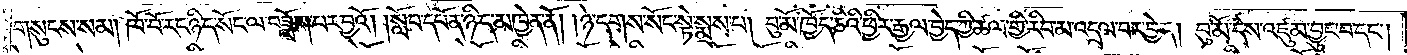གསུངས་སམ། ཁོ་བོ་རང་ཉིད་སོང་ལ་བཟློག་པར་བྱའོ། །སློབ་དཔོན་ཉིད་མཁྱེན་ནོ། །ཉེ་དགས་སོང་སྟེ་སྨྲས་པ། བུ་མོ་ཁྱོད་ཅིའི་ཕྱིར་རྒྱལ་བྱེད་ཀྱི་ཚལ་གྱི་རིབ་མ་འདྲལ་བར་བྱེད། བུ་མོ་དེས་འཛུམ་བྱུང་བ་དང༌།
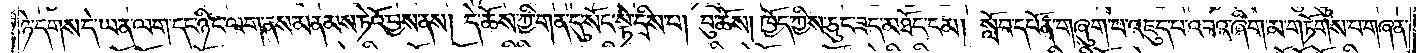ཉེ་དགས་དེ་ཡན་ལག་དང་ཉིང་ལག་ནས་མནམས་ཏེའོ་བྱས་ནས། དེ་ཆོས་ཀྱི་གན་དུ་སོང་སྟེ་དྲིས་པ། བུ་ཆོས། ཁྱོད་ཀྱིས་ཅུང་ཟད་མཐོང་ངམ། སློབ་དཔོན་གཞུག་པ་འཇུད་པ་འབའ་ཞིག་མ་གཏོགས་པ་གཞན་
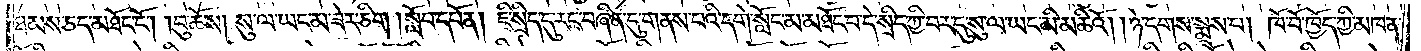ཐམས་ཅད་མཐོང་ངོ༌། །བུ་ཆོས། སུ་ལ་ཡང་མ་ཟེར་ཅིག །སློབ་དཔོན། ཇི་སྲིད་དུ་རང་བཞིན་དུ་གནས་པའི་དགེ་སློང་མ་མཐོང་བ་དེ་སྲིད་ཀྱི་བར་དུ་སུ་ལ་ཡང་མི་མཆིའོ། །ཉེ་དགས་སྨྲས་པ། ཁོ་བོ་ཁྱོད་ཀྱི་མཁན་
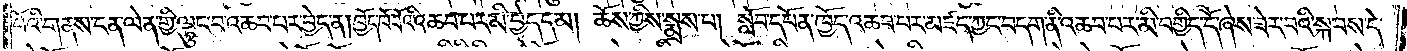བོའི་གནས་ངན་ལེན་གྱི་ལྟུང་བ་འཆབ་པར་བྱེད་ན། ཁྱོད་ཁོ་བོའི་འཆབ་པར་མི་བྱེད་དམ། ཆོས་ཀྱིས་སྨྲས་པ། སློབ་དཔོན་ཁྱོད་འཆབ་པར་མཛད་ཀྱང་བདག་ནི་འཆབ་པར་མི་བགྱིད་དོ་ཞེས་ཟེར་བའི་སྐབས་དེ་
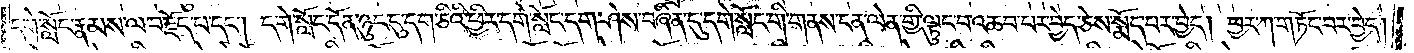དགེ་སློང་རྣམས་ལ་བརྗོད་པ་དང༌། དགེ་སློང་དོན་ཉུང་དུ་དག་ཅིའི་ཕྱིར་དགེ་སློང་དག་ཤེས་བཞིན་དུ་དགེ་སློང་གི་གནས་ངན་ལེན་གྱི་ལྟུང་བ་འཆབ་པར་བྱེད་ཅེས་སྨོད་པར་བྱེད། ཕྱར་ཀ་གཏོང་བར་བྱེད།
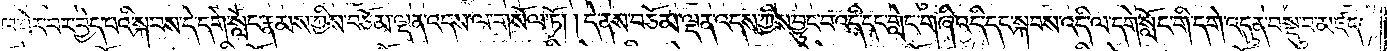ཁ་ཟེར་བར་བྱེད་པའི་སྐབས་དེ་དགེ་སློང་རྣམས་ཀྱིས་བཅོམ་ལྡན་འདས་ལ་གསོལ་ཏོ། །དེ་ནས་བཅོམ་ལྡན་འདས་ཀྱིས་བྱུང་བ་འདི་དང་གླེང་གཞི་འདི་དང་སྐབས་འདི་ལ་དགེ་སློང་གི་དགེ་འདུན་བསྡུ་བ་མཛད་
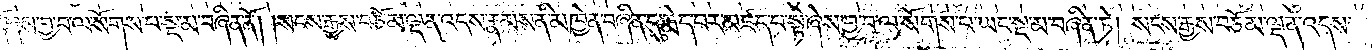དོ་ཞེས་བྱ་བ་ལ་སོགས་པ་སྔ་མ་བཞིན་ནོ། །སངས་རྒྱས་བཅོམ་ལྡན་འདས་རྣམས་ནི་མཁྱེན་བཞིན་དུ་རྨེད་པར་མཛད་པ་སྟེ་ཞེས་བྱ་བ་ལ་སོགས་པ་ཡང་སྔ་མ་བཞིན་ཏེ། སངས་རྒྱས་བཅོམ་ལྡན་འདས་
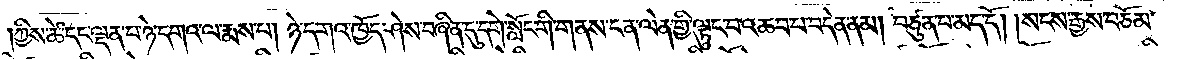ཀྱིས་ཚེ་དང་ལྡན་པ་ཉེ་དགའ་ལ་རྨས་པ། ཉེ་དགའ་ཁྱོད་ཤེས་བཞིན་དུ་དགེ་སློང་གི་གནས་ངན་ལེན་གྱི་ལྟུང་བ་འཆབ་པ་བདེན་ནམ། བཙུན་པ་མད་དོ། །སངས་རྒྱས་བཅོམ་
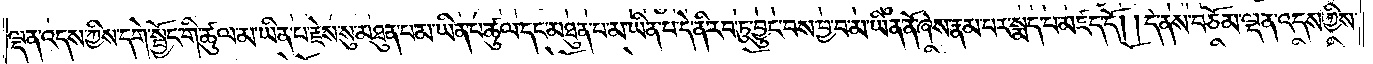ལྡན་འདས་ཀྱིས་དགེ་སྦྱོང་གི་ཚུལ་མ་ཡིན་པ་རྗེས་སུ་མཐུན་པ་མ་ཡིན་པ་ཚུལ་དང་མཐུན་པ་མ་ཡིན་པ་དེ་ནི་རབ་ཏུ་བྱུང་བས་བྱ་བ་མ་ཡིན་ནོ་ཞེས་རྣམ་པར་སྨད་པ་མཛད་དོ། །དེ་ནས་བཅོམ་ལྡན་འདས་ཀྱིས་
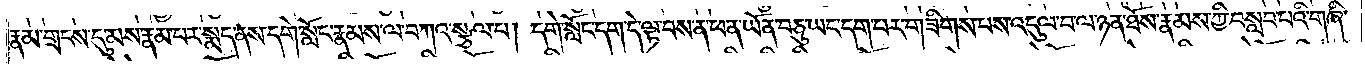རྣམ་གྲངས་དུ་མས་རྣམ་པར་སྨད་ནས་དགེ་སློང་རྣམས་ལ་བཀའ་སྩལ་པ། དགེ་སློང་དག་དེ་ལྟ་བས་ན་ཕན་ཡོན་བཅུ་ཡང་དག་པར་གཟིགས་པས་འདུལ་བ་ལ་ཉན་ཐོས་རྣམས་ཀྱི་བསླབ་པའི་གཞི་
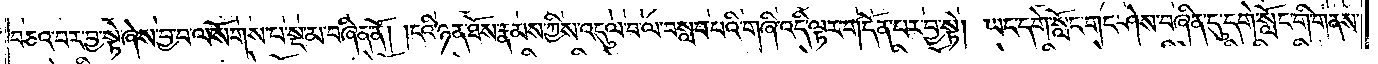བཅའ་བར་བྱ་སྟེ་ཞེས་བྱ་བ་ལ་སོགས་པ་སྔ་མ་བཞིན་ནོ། །ངའི་ཉན་ཐོས་རྣམས་ཀྱིས་འདུལ་བ་ལ་བསླབ་པའི་གཞི་འདི་ལྟར་གདོན་པར་བྱ་སྟེ། ཡང་དགེ་སློང་གང་ཤེས་བཞིན་དུ་དགེ་སློང་གི་གནས་
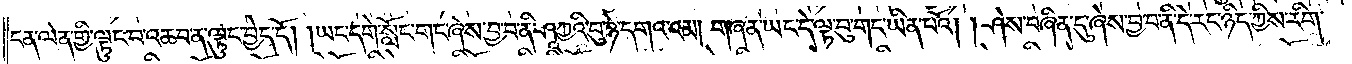ངན་ལེན་གྱི་ལྟུང་བ་འཆབ་ན་ལྟུང་བྱེད་དོ། །ཡང་དགེ་སློང་གང་ཞེས་བྱ་བ་ནི་ཤཱཀྱའི་བུ་ཉེ་དགའ་འམ། གཞན་ཡང་དེ་ལྟ་བུ་གང་ཡིན་པའོ། །ཤེས་བཞིན་དུ་ཞེས་བྱ་བ་ནི་དེ་རང་ཉིད་ཀྱིས་རིག་
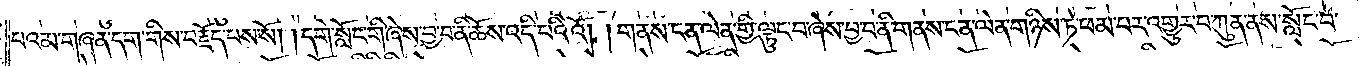པའམ་གཞན་དག་གིས་བརྗོད་པས་སོ། །དགེ་སློང་གི་ཞེས་བྱ་བ་ནི་ཆོས་འདི་པའིའོ། །གནས་ངན་ལེན་གྱི་ལྟུང་བ་ཞེས་བྱ་བ་ནི་གནས་ངན་ལེན་གཉིས་ཏེ་ཕམ་པར་འགྱུར་བ་ཀུན་ནས་སློང་བ་
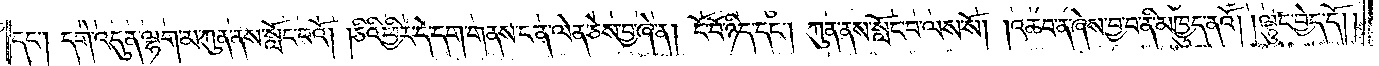དང༌། དགེ་འདུན་ལྷག་མ་ཀུན་ནས་སློང་བའོ། །ཅིའི་ཕྱིར་དེ་དག་གནས་ངན་ལེན་ཅེས་བྱ་ཞེ་ན། ངོ་བོ་ཉིད་དང༌། ཀུན་ནས་སློང་བ་ལས་སོ། །འཆབ་ན་ཞེས་བྱ་བ་ནི་མཁྱུད་ནའོ། །ལྟུང་བྱེད་དོ། །
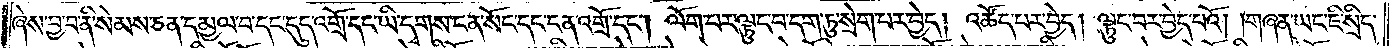ཞེས་བྱ་བ་ནི་སེམས་ཅན་དམྱལ་བ་དང་དུད་འགྲོ་དང་ཡི་དྭགས་ངན་སོང་དང་ངན་འགྲོ་དང༌། ལོག་པར་ལྟུང་བ་དག་ཏུ་སྲེག་པར་བྱེད། འཚོད་པར་བྱེད། ལྟུང་བར་བྱེད་པའོ། །གཞན་ཡང་ཇི་སྲིད་
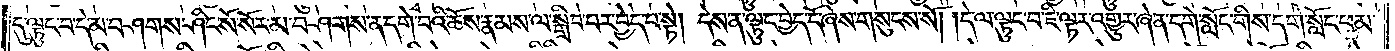དུ་ལྟུང་བ་དེ་མ་བཤགས་ཤིང་སོ་སོར་མ་བཤགས་ན་དགེ་བའི་ཆོས་རྣམས་ལ་སྒྲིབ་པར་བྱེད་པ་སྟེ། དེས་ན་ལྟུང་བྱེད་དོ་ཞེས་གསུངས་སོ། །དེ་ལ་ལྟུང་བ་ཇི་ལྟར་འགྱུར་ཞེ་ན་དགེ་སློང་གིས་དགེ་སློང་ཕམ་
